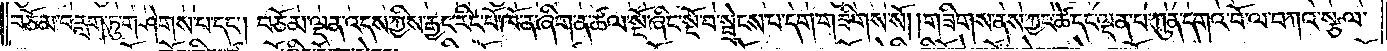བཅོམ་བརླག་ཏུ་གཤེགས་པ་དང༌། བཅོམ་ལྡན་འདས་ཀྱིས་རྒྱང་རིང་པོ་ཁོ་ན་ཞིག་ན་ཚལ་སྔོ་ཞིང་སྔོ་བ་སྦྲེངས་པ་དག་གཟིགས་སོ། །གཟིགས་ནས་ཀྱང་ཚེ་དང་ལྡན་པ་ཀུན་དགའ་བོ་ལ་བཀའ་སྩལ་
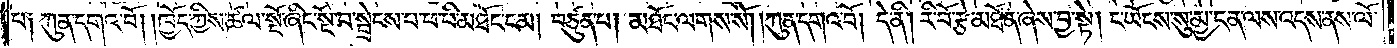པ༑ ཀུན་དགའ་བོ། །ཁྱོད་ཀྱིས་ཚལ་སྔོ་ཞིང་སྔོ་བ་སྦྲེངས་པ་ཕ་བི་མཐོང་ངམ། བཙུན་པ། མཐོང་ལགས་སོ། །ཀུན་དགའ་བོ། དེ་ནི། རི་བོ་རྩེ་མཐོན་ཞེས་བྱ་སྟེ། ང་ཡོངས་སུ་མྱ་ངན་ལས་འདས་ནས་ལོ་
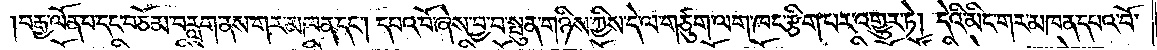བརྒྱ་ལོན་པ་དང་བཅོམ་བརླག་ནས་གར་མཁན་དང༌། དཔའ་བོ་ཞེས་བྱ་བ་སྤུན་གཉིས་ཀྱིས་དེ་ལ་གཙུག་ལག་ཁང་རྩིག་པར་འགྱུར་ཏེ། དེའི་མིང་གར་མཁན་དཔའ་བོ་
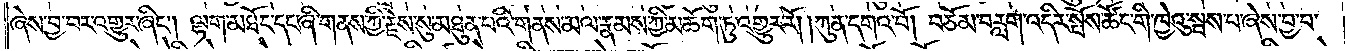ཞེས་བྱ་བར་འགྱུར་ཞིང༌། ལྷག་མཐོང་དང་ཞི་གནས་ཀྱི་རྗེས་སུ་མཐུན་པའི་གནས་མལ་རྣམས་ཀྱི་མཆོག་ཏུ་འགྱུར་རོ། །ཀུན་དགའ་བོ། བཅོམ་བརླག་འདིར་སྤོས་ཚོང་གི་ཁྱེའུ་སྦས་པ་ཞེས་བྱ་བ་
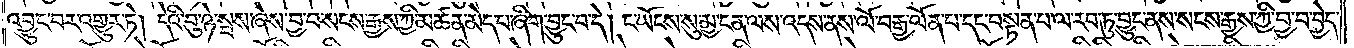འབྱུང་བར་འགྱུར་ཏེ། དེའི་བུ་ཉེ་སྦས་ཞེས་བྱ་བ་སངས་རྒྱས་ཀྱི་མཚན་མེད་པ་ཞིག་བྱུང་བ་དེ། ང་ཡོངས་སུ་མྱ་ངན་ལས་འདས་ནས་ལོ་བརྒྱ་ལོན་པ་དང་བསྟན་པ་ལ་རབ་ཏུ་བྱུང་ནས་སངས་རྒྱས་ཀྱི་བྱ་བ་བྱེད་
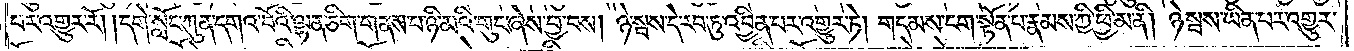པར་འགྱུར་རོ། །དགེ་སློང་ཀུན་དགའ་བོའི་ལྷན་ཅིག་གནས་པ་ཉི་མའི་གུང་ཞེས་བྱ་བས། ཉེ་སྦས་དེ་རབ་ཏུ་འབྱིན་པར་འགྱུར་ཏེ། གདམས་ངག་སྟོན་པ་རྣམས་ཀྱི་ཕྱི་མ་ནི། ཉེ་སྦས་ཡིན་པར་འགྱུར་
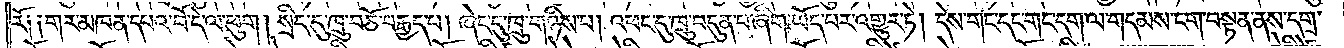རོ༑ ༑གར་མཁན་དཔའ་བོ་དེ་ལ་ཕུག། སྲིད་དུ་ཁྲུ་བཅོ་བརྒྱད་པ། ཞེང་དུ་ཁྲུ་གཉིས་པ། འཕང་དུ་ཁྲུ་བདུན་པ་ཞིག་ཡོད་པར་འགྱུར་ཏེ། དེས་གང་དང་གང་དག་ལ་གདམས་ངག་བསྟན་ནས་དགྲ་
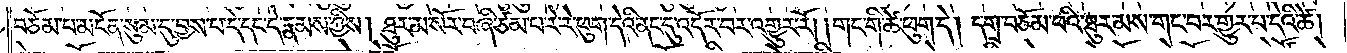བཅོམ་པ་མངོན་སུམ་དུ་བྱས་པ་དེ་དང་དེ་རྣམས་ཀྱིས། ཐུར་མ་སོར་བཞི་ཙམ་པ་རེ་རེ་ཕུག་དེའི་ནང་དུ་འདོར་བར་འགྱུར་རོ། །གང་གི་ཚེ་ཕུག་དེ། དགྲ་བཅོམ་པའི་ཐུར་མས་གང་བར་གྱུར་པ་དེའི་ཚེ།
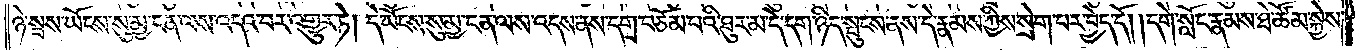ཉེ་སྦས་ཡོངས་སུ་མྱ་ངན་ལས་འདའ་བར་འགྱུར་ཏེ། དེ་ཡོངས་སུ་མྱ་ངན་ལས་འདས་ནས་དགྲ་བཅོམ་པའི་ཐུར་མ་དེ་དག་ཉིད་སྤུངས་ནས་དེ་རྣམས་ཀྱིས་སྲེག་པར་བྱེད་དོ། །དགེ་སློང་རྣམས་ཐེ་ཚོམ་སྐྱེས་
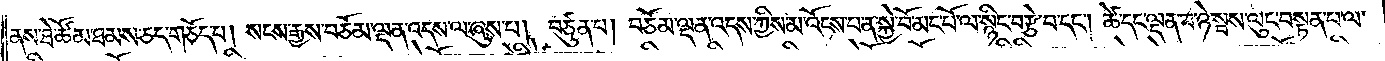ནས་ཐེ་ཚོམ་ཐམས་ཅད་གཅོད་པ། སངས་རྒྱས་བཅོམ་ལྡན་འདས་ལ་ཞུས་པ། བཙུན་པ། བཅོམ་ལྡན་འདས་ཀྱིས་མ་འོངས་པ་ན་སྐྱེ་བོ་མང་པོ་ལ་སྙིང་བརྩེ་བ་དང༌། ཚེ་དང་ལྡན་པ་ཉེ་སྦས་ལུང་བསྟན་པ་ལ་
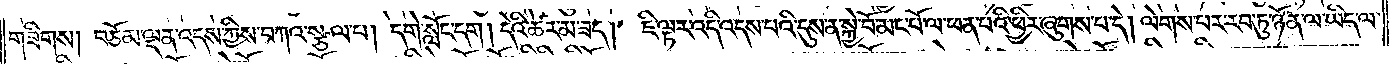གཟིགས། བཅོམ་ལྡན་འདས་ཀྱིས་བཀའ་སྩལ་པ། དགེ་སློང་དག། དེའི་ཚེར་མ་ཟད། ཇི་ལྟར་འདི་འདས་པའི་དུས་ན་སྐྱེ་བོ་མང་པོ་ལ་ཕན་པའི་ཕྱིར་ཞུགས་པ་དེ། ལེགས་པར་རབ་ཏུ་ཉོན་ལ་ཡིད་ལ་
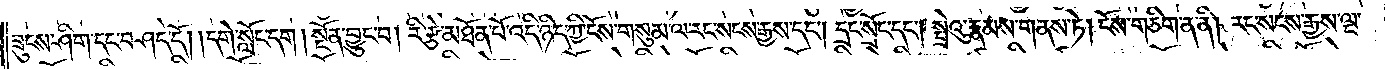ཟུངས་ཤིག་དང་བཤད་དོ། །དགེ་སློང་དག །སྔོན་བྱུང་བ། རི་རྩེ་མཐོན་པོ་འདི་ཉིད་ཀྱི་ངོས་གསུམ་ལ་རང་སངས་རྒྱས་དང༌། དྲང་སྲོང་དང༌། སྤྲེའུ་རྣམས་གནས་ཏེ། ངོས་གཅིག་ན་ནི། རང་སངས་རྒྱས་ལྔ་
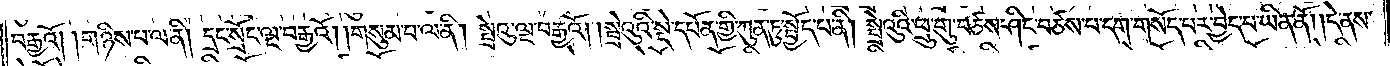བརྒྱའོ། །གཉིས་པ་ལ་ནི། དྲང་སྲོང་ལྔ་བརྒྱའོ། །གསུམ་པ་ལ་ནི། སྤྲེའུ་ལྔ་བརྒྱའོ། །སྤྲེའུའི་སྡེ་དཔོན་གྱི་ཀུན་ཏུ་སྤྱོད་པ་ནི། སྤྲེའུའི་ཕྲུ་གུ་བཙས་ཤིང་བཙས་པ་དག་གསོད་པར་བྱེད་པ་ཡིན་ནོ། །དེ་ནས་
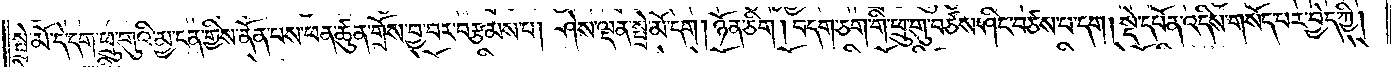སྤྲེ་མོ་དེ་དག་ཕྲུ་གུའི་མྱ་ངན་གྱིས་ནོན་པས་ཕན་ཚུན་གྲོས་བྱ་བར་བརྩམས་པ། ཤེས་ལྡན་སྤྲེ་མོ་དག། ཉོན་ཅིག །བདག་ཅག་གི་ཕྲུ་གུ་བཙས་ཤིང་བཙས་པ་དག །སྡེ་དཔོན་འདིས་གསོད་པར་བྱེད་ཀྱི།
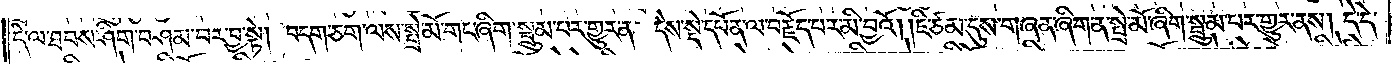དེ་ལ་ཐབས་ཤིག་བཤམ་བར་བྱ་སྟེ། བདག་ཅག་ལས་སྤྲེ་མོ་གང་ཞིག་སྦྲུམ་པར་གྱུར་མ། དེས་སྡེ་དཔོན་ལ་བརྗོད་པར་མི་བྱའོ། །ཇི་ཙམ་དུས་གཞན་ཞིག་ནས་སྤྲེ་མོ་ཞིག་སྦྲུམ་པར་གྱུར་ནས། དེ་དེ་
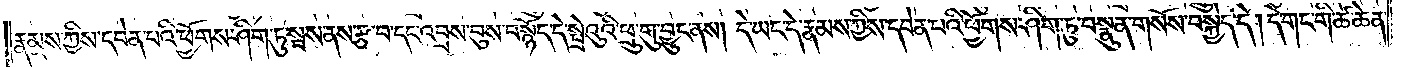རྣམས་ཀྱིས་དབེན་པའི་ཕྱོགས་ཤིག་ཏུ་སྦས་ནས་རྩ་བ་དང་འབྲས་བུས་བསྙོད་དེ་སྤྲེའུའི་ཕྲུ་གུ་བྱུང་ནས། དེ་ཡང་དེ་རྣམས་ཀྱིས་དབེན་པའི་ཕྱོགས་ཤིག་ཏུ་བསྣུན་གསོས་བསྐྱེད་དེ། དེ་གང་གི་ཚེ་ཆེན་
